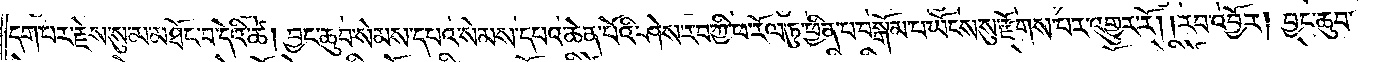དག་པར་རྗེས་སུ་མ་མཐོང་བ་དེའི་ཚེ། བྱང་ཆུབ་སེམས་དཔའ་སེམས་དཔའ་ཆེན་པོའི་ཤེས་རབ་ཀྱི་ཕ་རོལ་ཏུ་ཕྱིན་པ་བསྒོམ་པ་ཡོངས་སུ་རྫོགས་པར་འགྱུར་རོ། །རབ་འབྱོར། བྱང་ཆུབ་
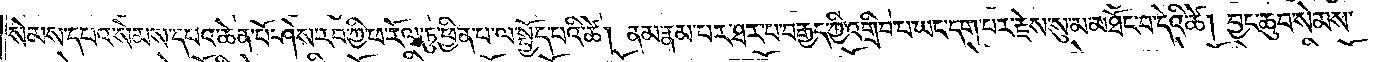སེམས་དཔའ་སེམས་དཔའ་ཆེན་པོ་ཤེས་རབ་ཀྱི་ཕ་རོལ་ཏུ་ཕྱིན་པ་ལ་སྤྱོད་པའི་ཚེ། ནམ་རྣམ་པར་ཐར་པ་བརྒྱད་ཀྱི་འགྲིབ་པ་ཡང་དག་པར་རྗེས་སུ་མ་མཐོང་བ་དེའི་ཚེ། བྱང་ཆུབ་སེམས་
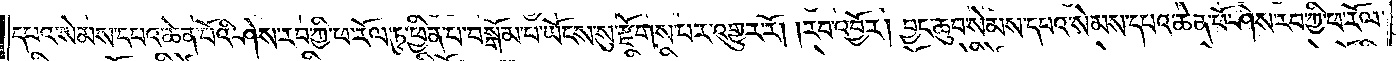དཔའ་སེམས་དཔའ་ཆེན་པོའི་ཤེས་རབ་ཀྱི་ཕ་རོལ་ཏུ་ཕྱིན་པ་བསྒོམ་པ་ཡོངས་སུ་རྫོགས་པར་འགྱུར་རོ། །རབ་འབྱོར། བྱང་ཆུབ་སེམས་དཔའ་སེམས་དཔའ་ཆེན་པོ་ཤེས་རབ་ཀྱི་ཕ་རོལ་
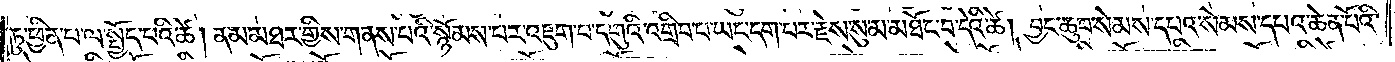ཏུ་ཕྱིན་པ་ལ་སྤྱོད་པའི་ཚེ། ནམ་མཐར་གྱིས་གནས་པའི་སྙོམས་པར་འཇུག་པ་དགུའི་འགྲིབ་པ་ཡང་དག་པར་རྗེས་སུ་མ་མཐོང་བ་དེའི་ཚེ། བྱང་ཆུབ་སེམས་དཔའ་སེམས་དཔའ་ཆེན་པོའི་
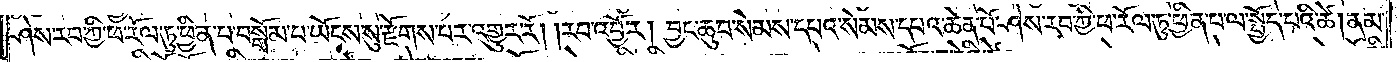ཤེས་རབ་ཀྱི་ཕ་རོལ་ཏུ་ཕྱིན་པ་བསྒོམ་པ་ཡོངས་སུ་རྫོགས་པར་འགྱུར་རོ། །རབ་འབྱོར། བྱང་ཆུབ་སེམས་དཔའ་སེམས་དཔའ་ཆེན་པོ་ཤེས་རབ་ཀྱི་ཕ་རོལ་ཏུ་ཕྱིན་པ་ལ་སྤྱོད་པའི་ཚེ། ནམ་
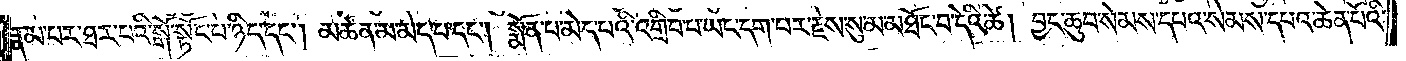རྣམ་པར་ཐར་པའི་སྒོ་སྟོང་པ་ཉིད་དང༌། མཚན་མ་མེད་པ་དང༌། སྨོན་པ་མེད་པའི་འགྲིབ་པ་ཡང་དག་པར་རྗེས་སུ་མ་མཐོང་བ་དེའི་ཚེ། བྱང་ཆུབ་སེམས་དཔའ་སེམས་དཔའ་ཆེན་པོའི་
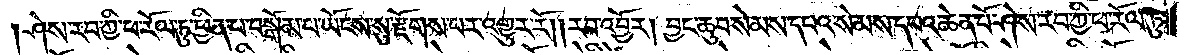ཤེས་རབ་ཀྱི་ཕ་རོལ་ཏུ་ཕྱིན་པ་བསྒོམ་པ་ཡོངས་སུ་རྫོགས་པར་འགྱུར་རོ། །རབ་འབྱོར། བྱང་ཆུབ་སེམས་དཔའ་སེམས་དཔའ་ཆེན་པོ་ཤེས་རབ་ཀྱི་ཕ་རོལ་ཏུ་
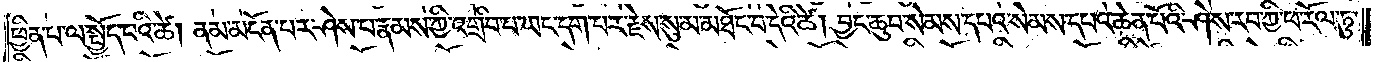ཕྱིན་པ་ལ་སྤྱོད་པའི་ཚེ། ནམ་མངོན་པར་ཤེས་པ་རྣམས་ཀྱི་འགྲིབ་པ་ཡང་དག་པར་རྗེས་སུ་མ་མཐོང་བ་དེའི་ཚེ། བྱང་ཆུབ་སེམས་དཔའ་སེམས་དཔའ་ཆེན་པོའི་ཤེས་རབ་ཀྱི་ཕ་རོལ་ཏུ་
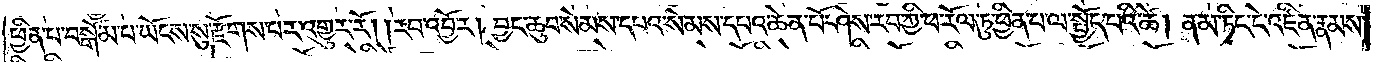ཕྱིན་པ་བསྒོམ་པ་ཡོངས་སུ་རྫོགས་པར་འགྱུར་རོ། །རབ་འབྱོར། བྱང་ཆུབ་སེམས་དཔའ་སེམས་དཔའ་ཆེན་པོ་ཤེས་རབ་ཀྱི་ཕ་རོལ་ཏུ་ཕྱིན་པ་ལ་སྤྱོད་པའི་ཚེ། ནམ་ཏིང་ངེ་འཛིན་རྣམས་
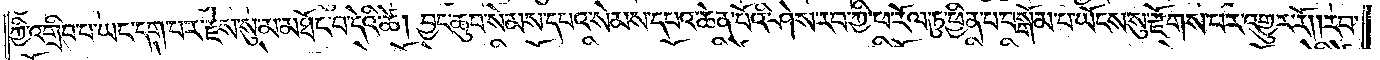ཀྱི་འགྲིབ་པ་ཡང་དག་པར་རྗེས་སུ་མ་མཐོང་བ་དེའི་ཚེ། བྱང་ཆུབ་སེམས་དཔའ་སེམས་དཔའ་ཆེན་པོའི་ཤེས་རབ་ཀྱི་ཕ་རོལ་ཏུ་ཕྱིན་པ་བསྒོམ་པ་ཡོངས་སུ་རྫོགས་པར་འགྱུར་རོ། །རབ་
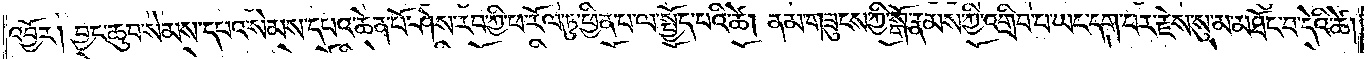འབྱོར། བྱང་ཆུབ་སེམས་དཔའ་སེམས་དཔའ་ཆེན་པོ་ཤེས་རབ་ཀྱི་ཕ་རོལ་ཏུ་ཕྱིན་པ་ལ་སྤྱོད་པའི་ཚེ། ནམ་གཟུངས་ཀྱི་སྒོ་རྣམས་ཀྱི་འགྲིབ་པ་ཡང་དག་པར་རྗེས་སུ་མ་མཐོང་བ་དེའི་ཚེ།
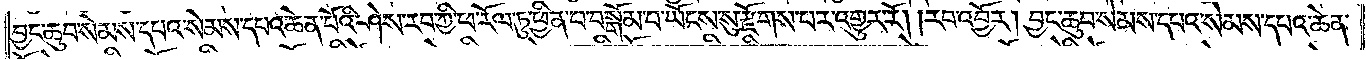བྱང་ཆུབ་སེམས་དཔའ་སེམས་དཔའ་ཆེན་པོའི་ཤེས་རབ་ཀྱི་ཕ་རོལ་ཏུ་ཕྱིན་པ་བསྒོམ་པ་ཡོངས་སུ་རྫོགས་པར་འགྱུར་རོ། །རབ་འབྱོར། བྱང་ཆུབ་སེམས་དཔའ་སེམས་དཔའ་ཆེན་
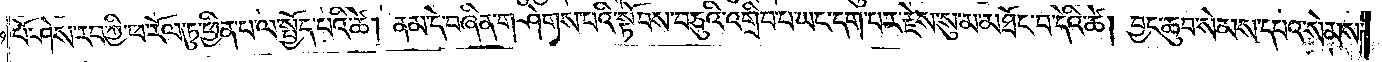པོ་ཤེས་རབ་ཀྱི་ཕ་རོལ་ཏུ་ཕྱིན་པ་ལ་སྤྱོད་པའི་ཚེ། ནམ་དེ་བཞིན་གཤེགས་པའི་སྟོབས་བཅུའི་འགྲིབ་པ་ཡང་དག་པར་རྗེས་སུ་མ་མཐོང་བ་དེའི་ཚེ། བྱང་ཆུབ་སེམས་དཔའ་སེམས་
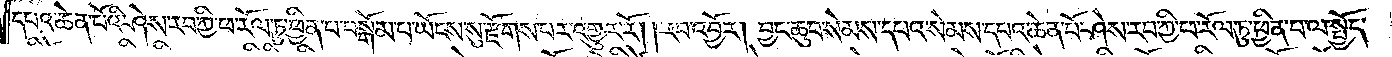དཔའ་ཆེན་པོའི་ཤེས་རབ་ཀྱི་ཕ་རོལ་ཏུ་ཕྱིན་པ་བསྒོམ་པ་ཡོངས་སུ་རྫོགས་པར་འགྱུར་རོ། །རབ་འབྱོར། བྱང་ཆུབ་སེམས་དཔའ་སེམས་དཔའ་ཆེན་པོ་ཤེས་རབ་ཀྱི་ཕ་རོལ་ཏུ་ཕྱིན་པ་ལ་སྤྱོད་
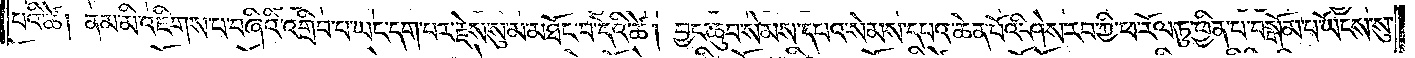པའི་ཚེ། ནམ་མི་འཇིགས་པ་བཞིའི་འགྲིབ་པ་ཡང་དག་པར་རྗེས་སུ་མ་མཐོང་བ་དེའི་ཚེ། བྱང་ཆུབ་སེམས་དཔའ་སེམས་དཔའ་ཆེན་པོའི་ཤེས་རབ་ཀྱི་ཕ་རོལ་ཏུ་ཕྱིན་པ་བསྒོམ་པ་ཡོངས་སུ་
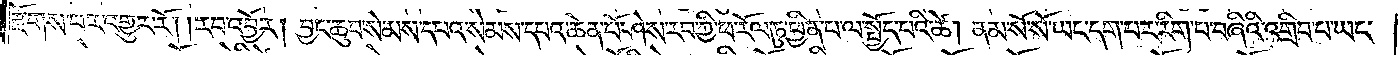རྫོགས་པར་འགྱུར་རོ། །རབ་འབྱོར། བྱང་ཆུབ་སེམས་དཔའ་སེམས་དཔའ་ཆེན་པོ་ཤེས་རབ་ཀྱི་ཕ་རོལ་ཏུ་ཕྱིན་པ་ལ་སྤྱོད་པའི་ཚེ། ནམ་སོ་སོ་ཡང་དག་པར་རིག་པ་བཞིའི་འགྲིབ་པ་ཡང་
